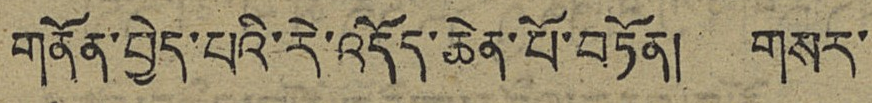གནོན་བྱེད་པའི་རེ་འདོད་ཆེན་པོ་བཏོན། གསར་
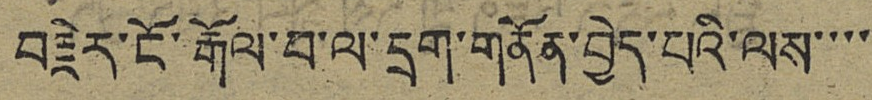བརྗེར་ངོ་རྒོལ་བ་ལ་དྲག་གནོན་བྱེད་པའི་ལས་་་་
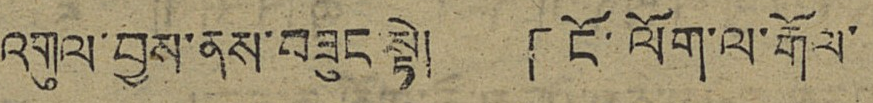འགུལ་བྱས་ནས་བཟུང་སྟེ། 「ངོ་ལོག་ལ་རྒོལ་
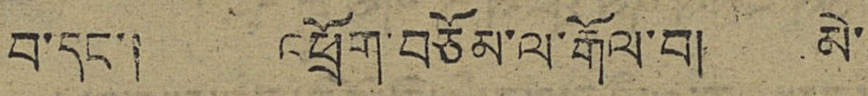བ་དང་། འཕྲོག་བཅོམ་ལ་རྒོལ་བ། མེ་
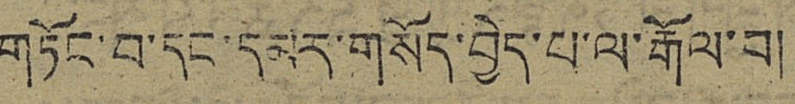གཏོང་བ་དང་དམར་གསོད་བྱེད་པ་ལ་རྒོལ་བ།
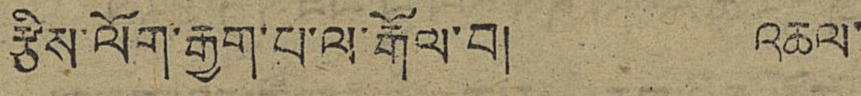རྩིས་ལོག་རྒྱག་པ་ལ་རྒོལ་བ། འཆལ་
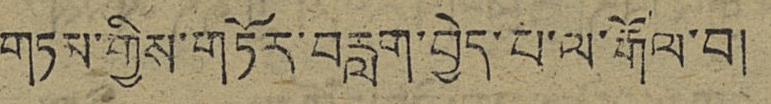གཏམ་གྱིས་གཏོར་བརླག་བྱེད་པ་ལ་རྒོལ་བ།
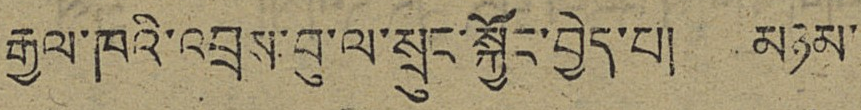རྒྱལ་ཁའི་འབྲས་བུ་ལ་སྲུང་སྐྱོང་བྱེད་པ། མཉམ་
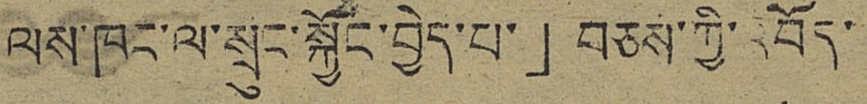ལས་ཁང་ལ་སྲུང་སྐྱོང་བྱེད་པ་」བཅས་ཀྱི་འབོད་
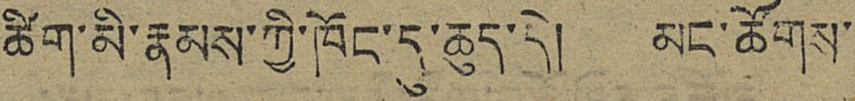ཚིག་མི་རྣམས་ཀྱི་ཁོང་དུ་ཆུད་དེ། མང་ཚོགས་
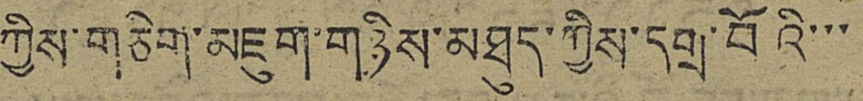ཀྱིས་གཅིག་མཇུག་གཉིས་མཐུད་ཀྱིས་དགྲ་བོའི་་་
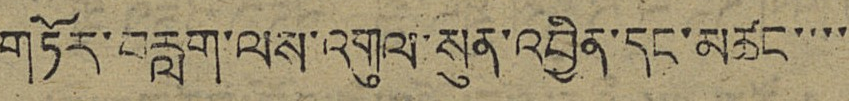གཏོར་བརླག་ལས་འགུལ་སུན་འབྱིན་དང་མཚང་་་་
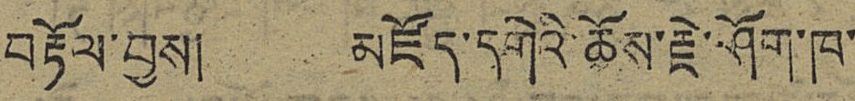བརྟོལ་བྱས། མཛོད་དགེའི་ཆོས་རྗེ་ཤོག་ཁ་
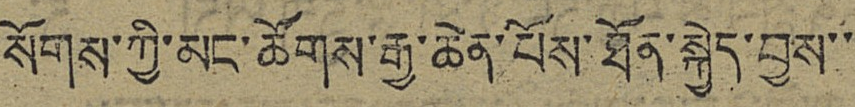སོགས་ཀྱི་མང་ཚོགས་རྒྱ་ཆེན་པོས་ཐོན་སྐྱེད་བྱས་་
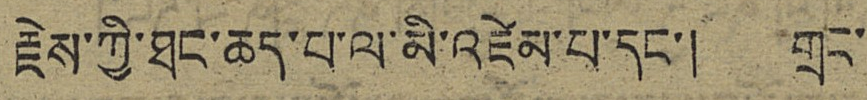རྗེས་ཀྱི་ཐང་ཆད་པ་ལ་མི་འཛེམ་པ་དང་། གྲང་
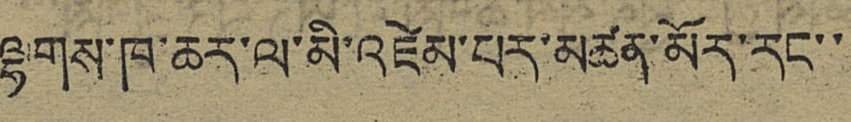ལྷགས་ཁ་ཆར་ལ་མི་འཛེམ་པར་མཚན་མོར་རང་་
